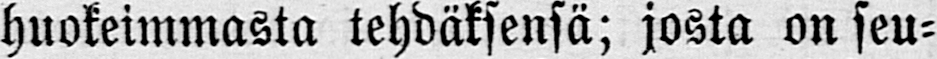huokeimmasta tehdäksensä; josta on seu-
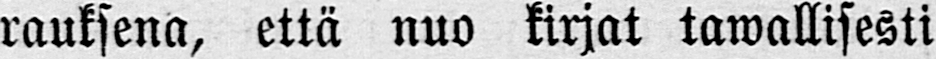rauksena, että nuo kirjat tawallisesti
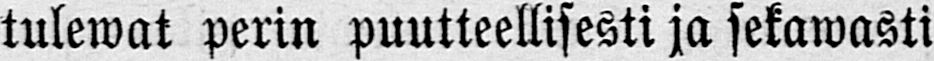tulewat perin puutteellisesti ja sekawasti
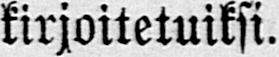kirjoitetuiksi.
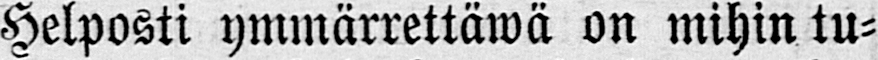Helposti ymmärrettäwä on mihin tu-
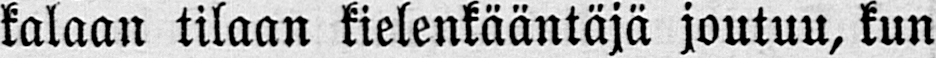kalaan tilaan kielenkääntäjä joutuu, kun
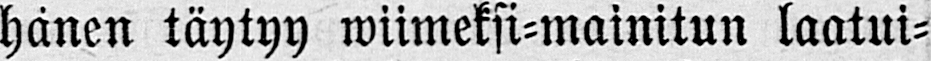hänen täytyy wiimeksi-mainitun laatui-
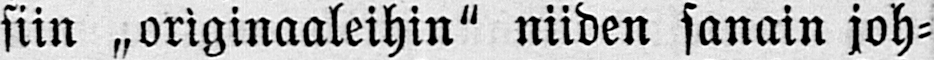siin „originaaleihin" niiden sanain joh-
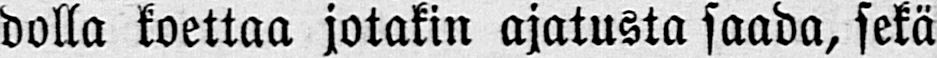dolla koettaa jotakin ajatusta saada, sekä
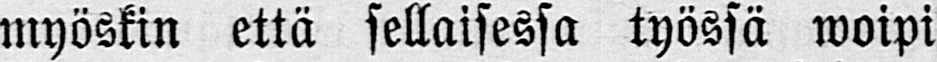myöskin että sellaisessa työssä woipi
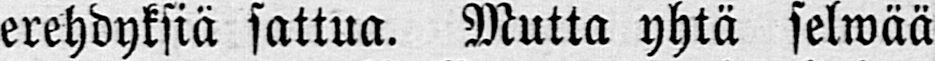erehdyksiä sattua. Mutta yhtä selwää
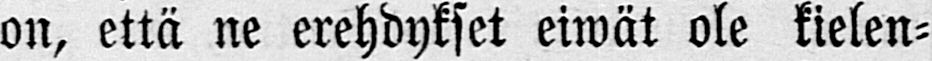on, että ne erehdykset eiwät ole kielen-
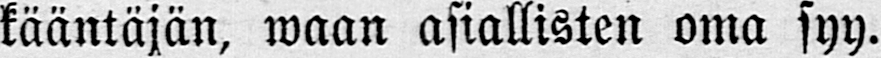kääntäjän, waan asiallisten oma syy.
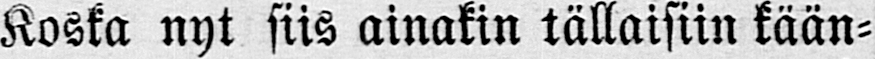Koska nyt siis ainakin tällaisiin kään-
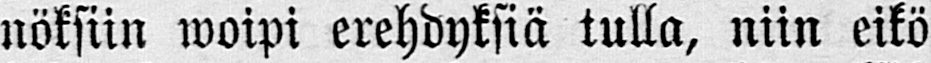nöksiin woipi erehdyksiä tulla, niin eikö
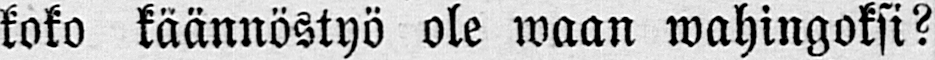koko käännöstyö ole waan wahingoksi?
